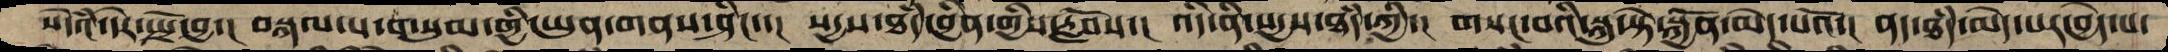པེཾདའ་དེར་སྤྲོ་བྱ་། བསྐལ་པ་གསུམ་གྱི་ཡུན་གནས་ཤིང་་། སདྱས་ཐཾད་བྱིན་གྱིས་རློབས་། འདི་ནི་སདྱས་ཐཾད་ཀྱི་། གསང་བའི་སྐུ་སྟེ་སྐྱོན་མེད་པའོ་། ནད་ཐཾད་མེད་པར་བྱེད་པ་
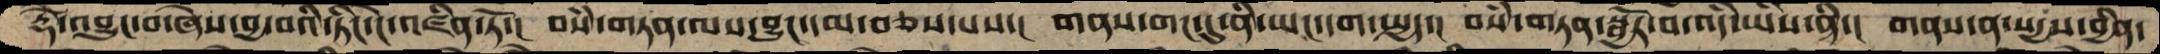རྡོེ་འབྱུང་བ་ཞེས་བྱ་བའི་ཏིང་ངེ་འཛིན་ཏོ་། བསཾ་གཏན་ལས་བྱུང་དམ་བཅས་པས་། གནས་གང་དུ་ནི་ཡང་དག་སྤྱད་། བསཾ་གཏན་སྦྱོར་བ་འདི་ཡིས་ནི་། གནས་ན་སདྱས་བྱིན་
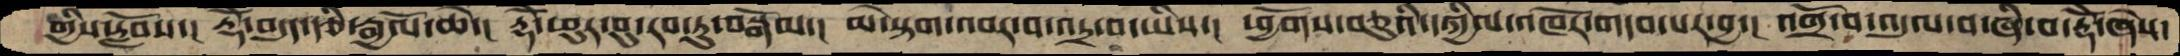གྱིས་རློབས་།  རྡོེ་བདུད་རྩི་རྒྱལོ་ཆེ་།  རྡོེ་ཕུར་བུ་རབ་ཏུ་བསྒོམ་། མེ་སྟག་འབར་བ་འདྲ་བ་ཡིས་། ཕྱོགས་བཅུའི་དཀྱིལ་འཁོར་གདབ་པར་བྱ་། འགྲོ་བ་འདུལ་བ་ཞི་བ་རྡོེ་ཞེས་
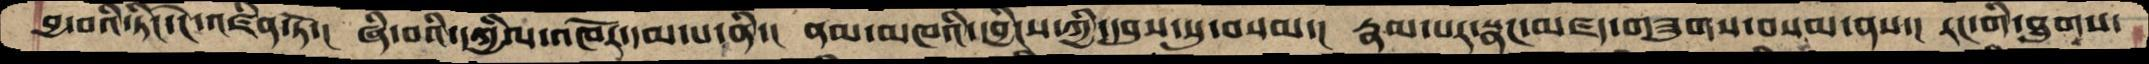བྱ་བའི་ཏིང་ངེ་འཛིན་ཏོ་། ཞི་བའི་དཀྱིལ་འཁོར་དམ་པ་ནི་།  ནམ་མཁའི་དབྱིངས་ཀྱི་དབུས་སུ་བསམ་།  རྣམ་པར་སྣང་མཛད་གཟུགས་བསམ་ནས་། རང་གི་ཐུགས་
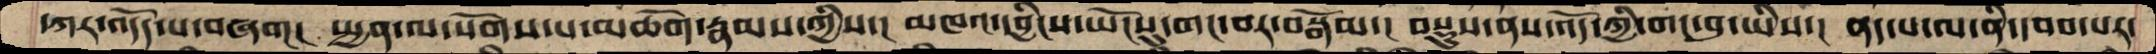དཀར་འདོདཔ་བཞག། སྤྱན་ལ་སོགས་པ་མཆོག་རྣམས་ཀྱིས་། མཁའ་དབྱིངས་ཡོངསུ་གང་བར་བསྒོམ་། བསྡུས་ནས་འོད་ཀྱི་གང་བུ་ཡིས་།  ནད་པ་ལ་ནི་དབབ་པར་
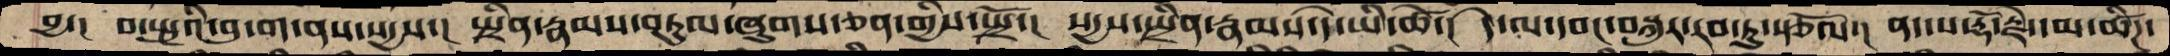བྱ་། བ་སྤུའི་བུ་ག་ནས་སདྱས་། སྤྲིན་རྣམས་བཏུལ་ཞུགས་ཅན་གྱིས་སྤྲོས་། སདྱས་སྤྲིན་རྣམས་དེ་ཡི་ཚེ་། དེ་ལ་དབང་བསྐུར་རབ་ཏུ་སྩོལ་། ནད་པ་རྡོ་རྗེ་དམ་ཚིཌ་
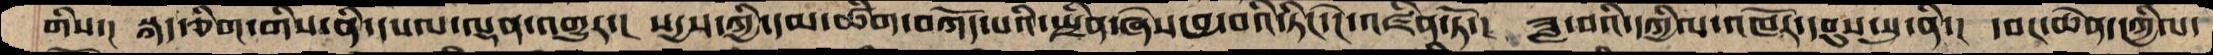གིས་། སྐད་ཅིག་གིས་ནི་དཔལ་ལྡན་འགྱུར་། སདྱས་ཀྱི་དམ་ཚིག་བཀོད་པའི་སྤྲིན་ཞེས་བྱ་བའི་ཏིང་ངེ་འཛིན་ཏོ་།  ཟླ་བའི་དཀྱིལ་འཁོར་དབུས་སུ་ནི་། དབང་ཆེན་དཀྱིལ་
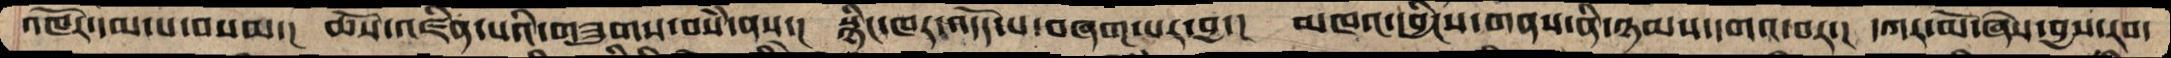འཁོར་དམ་པ་བསམ་།  ཆོས་འཛིན་པའི་གཟུགས་བསཾ་ནས་།  སྙིང་ཁར་འདོད་པ་བཞག་པར་བྱ་།  མཁའ་དབྱིངས་གནས་ནི་ཉམས་དགའ་བར་།  དཀར་མོ་ཞེས་བྱས་རབ་
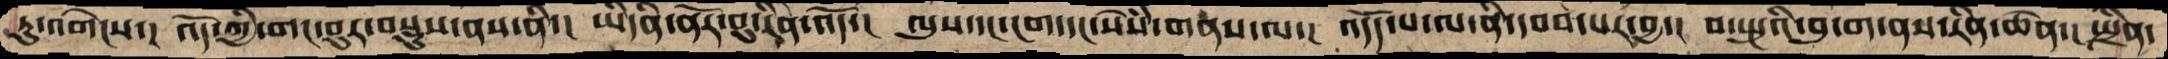ཏུ་འགེངས་། འོད་ཀྱི་གང་བུར་བསྡུས་ནས་ནི་། ཡིད་ནི་ནོར་བུ་རིེན་འོད་། ལུས་དང་ངག་དང་སེསཾ་གནས་ལ་། འདོད་པ་ལ་ནི་དབབ་པར་བྱ་། བ་སྤུའི་བུ་ག་ནས་རིན་ཆེན་། སྤྲིན་
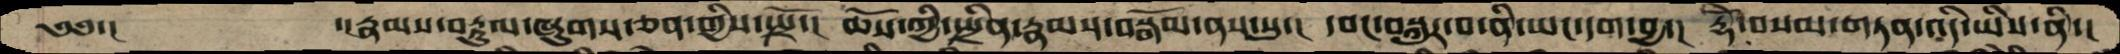༄༅་།        ་།རྣམས་བརྟུལ་ཞུགས་ཅན་གྱིས་སྤྲོ་། ཆོས་གྱི་སྤྲིན་རྣམས་བསྒོམ་ནས་སུ་། དབང་བསྐུར་བ་ནི་ཡང་དག་བྱ་།  རྡོེ་བསམ་གཏན་འདི་ཡིས་ནི་།
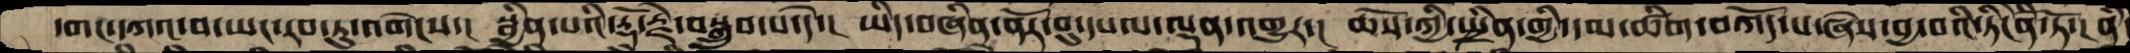དགང་དཀའ་བ་ཡང་རབ་ཏུ་འགེངས་།  སྦྱིན་པའི་རྡོ་རྗེ་བསྒྲུབ་པ་དེ་།  ཡིད་བཞིན་ནོར་བུ་དཔལ་ལྡན་འགྱུར་། ཆོས་ཀྱི་སྤྲིན་གྱི་དམ་ཚིག་བཀོད་པ་ཞེས་བྱ་བའི་ཏིངེཛིན་ཏོ་། ནི་
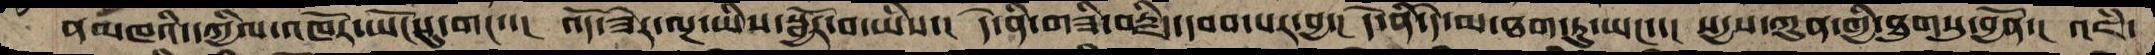ནམཁའི་དཀྱིལ་འཁོར་ཡོངསུ་གང་་།  འོད་ཟེར་ལྔ་ཡིས་སྦྱོར་བ་ཡིས་།  དེ་ནི་གཟི་བརྗིད་དབབ་པར་བྱ་།  དེ་ནི་དེ་མ་ཐག་ཏུ་ཡང་་།  སདྱས་ཀུན་གྱི་ཐུགསུ་བྱོན་།  འཇཾ་
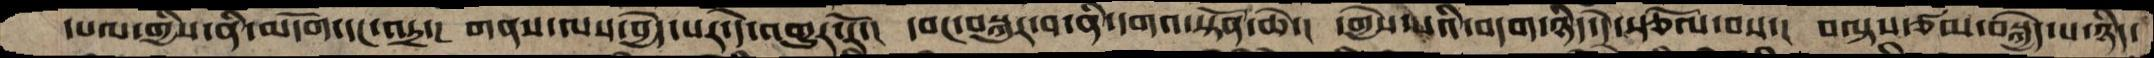དཔལ་གྱིས་ནི་མདོག་དང་འདྲ་།  གནས་ལས་བྱེད་པར་དེ་འགྱུར་རོ་།  དབང་བསྐུར་བ་ནི་དགའ་སྟོན་ཆེ་།  དགྱེས་པའི་བདག་ཉིད་དེ་སྩོལ་བས་།  བལྟས་ཙམ་བསྐྱེད་པ་ཉིད་
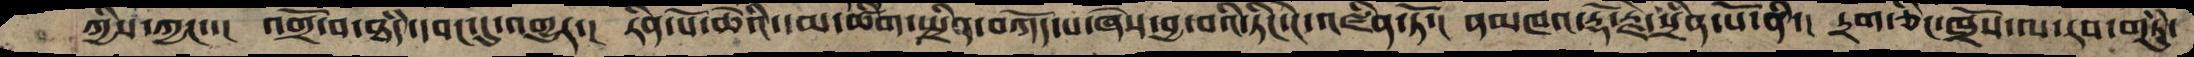ཀྱིས་ཀྱང་་།  འགྲོ་བ་ཐཾད་དབང་དུ་འགྱུར་།  རིན་པོ་ཆེའི་དམ་ཚིག་སྤྲིན་བཀོད་པ་ཞེས་བྱ་བའི་ཏིང་ངེ་འཛིན་ཏོ་།   ནམཁའ་རྡོ་རྗེ་སྲིན་པོ་ནི་།  དྲག་ཅིང་ཁྲོས་ལ་རབ་གཏུཾ་
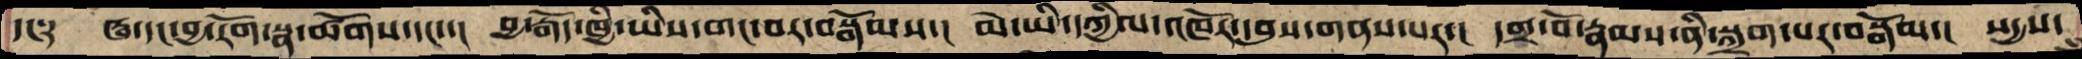དང་༑   ཝ་དང་བྱ་རོག་སྣ་ཚོགས་དང་་།  བྱ་རྒོད་ཁྱི་ཡིས་གང་བར་བསྒོམས་།  མེ་ཡི་དཀྱིལ་འཁོར་དབུས་གནས་པར་།  དགྲ་བོ་རྣམས་ནི་སྐྲག་པར་བསྒོམ་།  སདྱས་
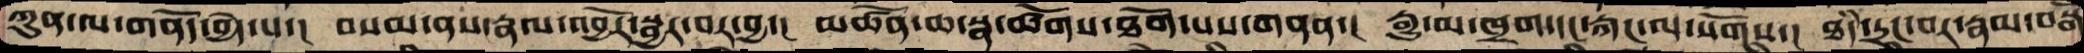ཀུན་ལ་གནོད་བྱེད་པ་།  བསམ་ནས་རྣལ་འབྱོར་སྦྱར་བར་བྱ་།  མཚོན་ཆ་སྣ་ཚོགས་ཐོག་པས་གནན་།  རྒྱུ་མ་ཁྲག་དང་རྐང་ལ་སོགས་།  ཐཾད་དྲང་བར་རྣམ་བསྒོ
